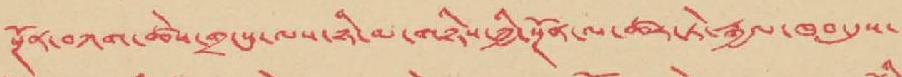སྔོན་བཀག་ཚེས་གྲངས་ལས་ཉི་མ་གཉིས་ཀྱི་སྔོན་ལ་ཚར་ཏེ་རྒྱལ་ཁབ་དུས་
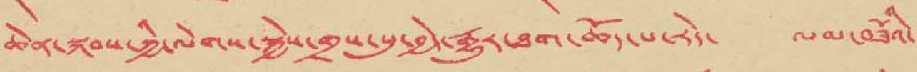ཆེན་སྐབས་ཀྱི་ལེགས་སྐྱེས་གྲས་སུ་བྱེད་རྒྱུར་ཐག་ཆོད་པ་རེད་ ལམ་བཟོའི་
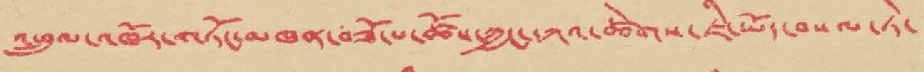འཕྲུལ་འཁོར་གཏོང་མཁན་བཟོ་པ་ཚོས་ཀྱང་དཀའ་ཚེགས་ཇི་ཡོད་བསལ་ཏེ་
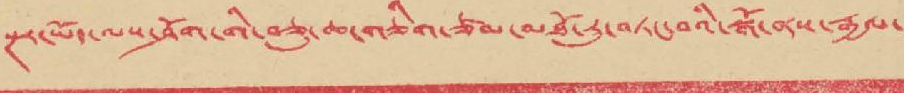སྔར་ཡོད་ལས་ཤོག་གི་བཅུ་ཆ་གཅིག་ཙམ་མཐོ་རུ་བཏང་བའི་སྒོ་ནས་རྒྱལ་
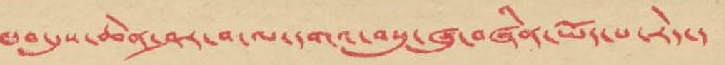ཁབ་དུས་ཆེན་ཤར་བ་ལ་དགའ་བསུ་ཞུ་བཞིན་ཡོད་པ་རེད་།
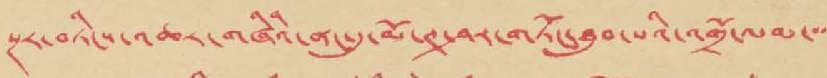སྔར་བཏིངས་འཆར་གཞིའི་ནང་དུ་མོ་ཊ་ཤར་གཏོང་ཐུབ་པའི་འགྲོ་ལམ་་་
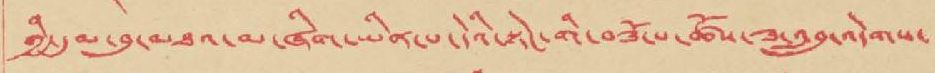གྱི་དུམ་བུ་མཐའ་མ་ཞིག་ཡིན་པ་དེའི་སྟེང་གི་བཟོ་པ་ཚོས་ཟ་འབྲུ་འདེགས་
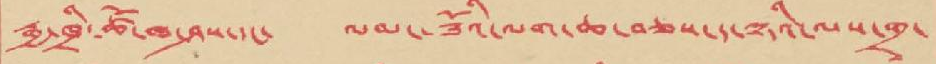རྒྱ་ཁྲི་ཚོ་ཁ་ཤས་དང་ ལམ་ཟོའི་ལག་ཆ་བཅས་ད་ལྟའི་ལས་གྲྭ་
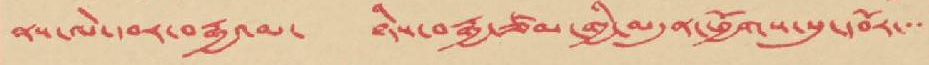ནས་ལེ་དབར་བརྒྱའམ་ ཉིས་བརྒྱ་ཙམ་གྱི་མདུན་ཕྱོགས་སུ་དབོར་་་
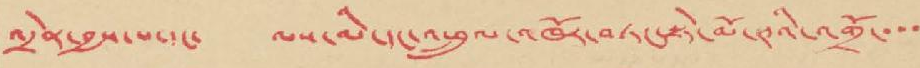འདྲེན་བྱས་པ་དང་ ལས་མི་དང་འཕྲུལ་འཁོར་བཏང་སྟེ་མོ་ཊའི་འགྲོ་་་་
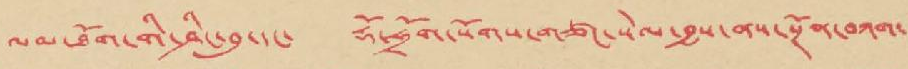ལམ་ཐོག་གི་ཤིང་བུ་དང་ རྡོ་ཧྲོག་སོགས་གཙང་སེལ་བྱས་ནས་སྔོན་བཀག་
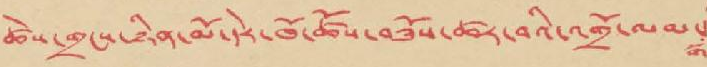ཚེས་གྲངས་ཉིན་མོ་དེར་ཁོ་ཚོས་བཟོས་ཚར་བའི་འགྲོ་ལམ་
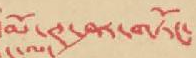མོ་ཊ་ཤར་གཏོང་
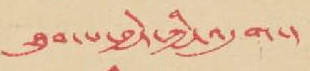ཐུབ་པ་བྱེད་ཀྱི་འདུག་།
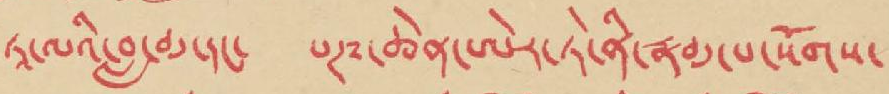ཏཱ་ལའི་བླ་མ་དང་ པཎ་ཆེན་ཨེར་ཏེ་ནི་རྣམ་པ་སོགས་
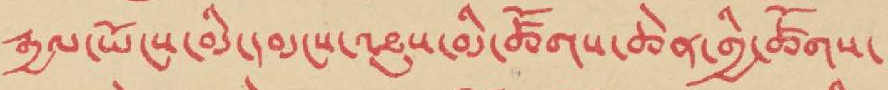རྒྱལ་ཡོངས་མི་དམངས་འཐུས་མི་ཚོགས་ཆེན་གྱི་ཚོགས་
